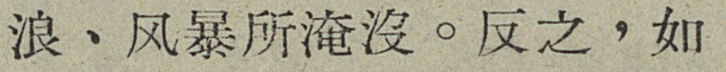浪、风暴所淹沒。反之，如
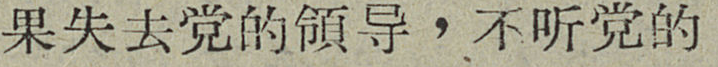果失去党的領导，不听党的
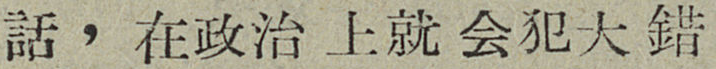話，在政治上就会犯大錯
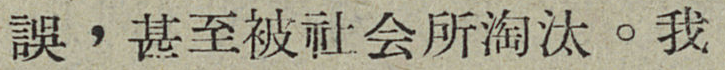誤，甚至被社会所淘汰。我
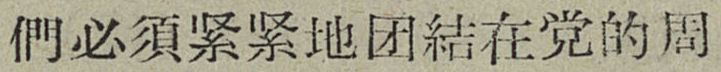們必須紧紧地团結在党的周
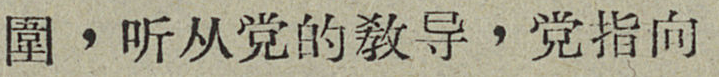圍，听从党的敎导，党指向
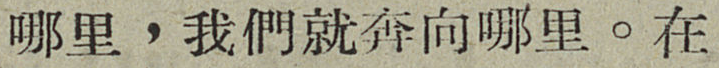哪里，我們就奔向哪里。在
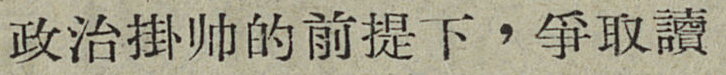政治掛帅的前提下，爭取讀
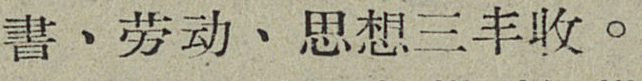書、劳动、思想三丰收。
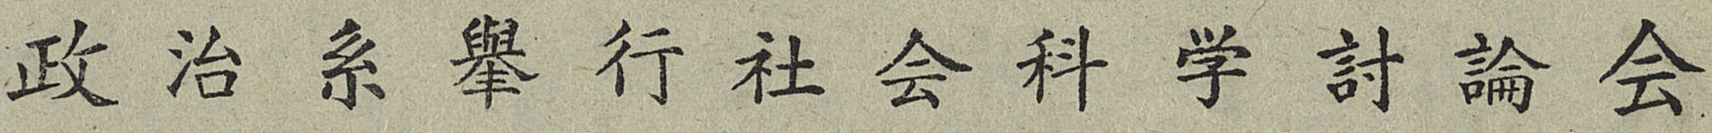政 治 系 舉 行 社 会 科 学 討 論 会
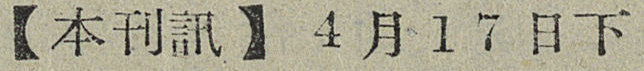【本刊訊】4月17日下
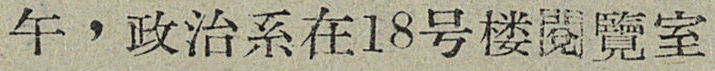午，政治系在18号楼閱覽室
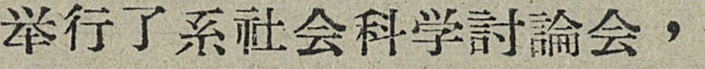举行了系社会科学討論会，
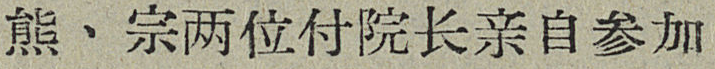熊、宗两位付院长亲自参加
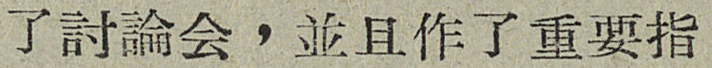了討論会，並且作了重要指
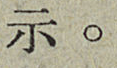示。
